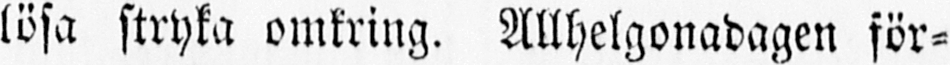lösa stryka omkring. Allhelgonadagen för-
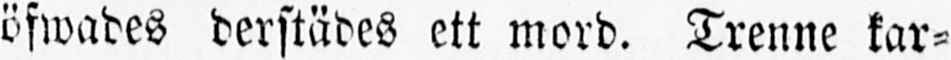öfwades derstädes ett mord. Trenne kar-
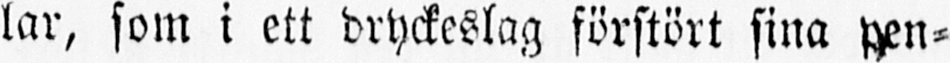lar, som i ett dryckeslag förstört sina pen-
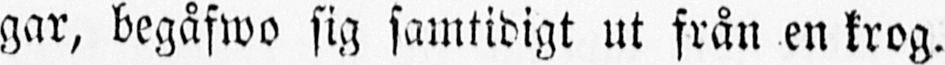gar, begåfwo sig samtidigt ut från en krog.
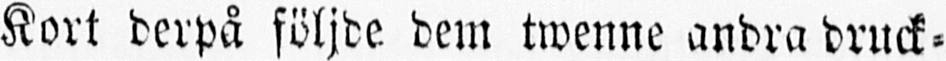Kort derpå följde dem twenne andra druck-
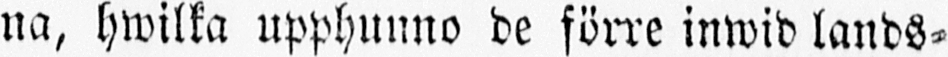na, hwilka upphunno de förre inwid lands-
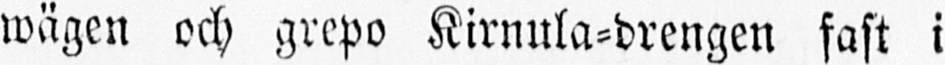wägen och grepo Kirnula-drengen fast i
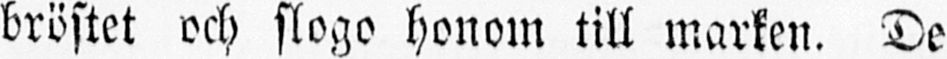bröstet och slogo honom till marken. De
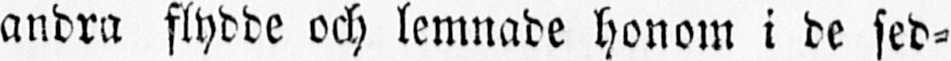andra flydde och lemnade honom i de sed-
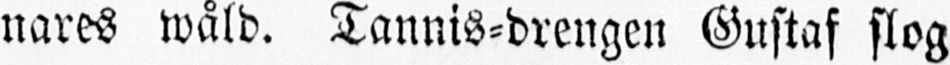nares wåld. Tannis-drengen Gustaf slog
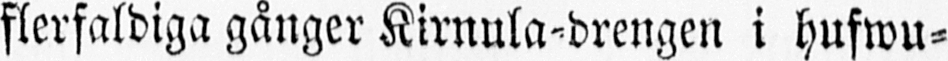flerfaldiga gånger Kirnula-drengen i hufwu-
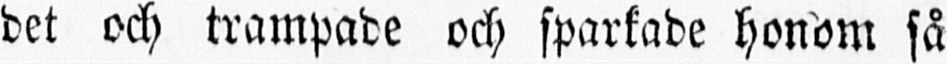det och trampade och sparkade honom så
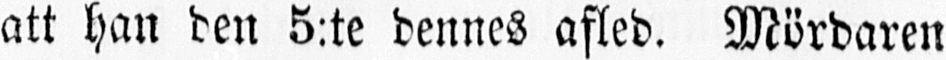att han den 5:te dennes afled. Mördaren
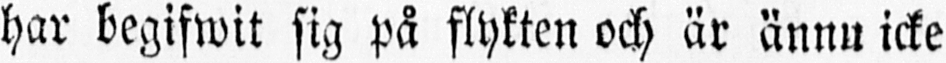har begifwit sig på flykten och är ännu icke
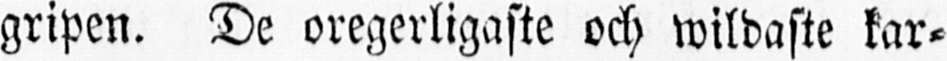gripen. De oregerligaste och wildaste kar-
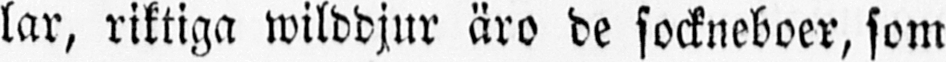lar, riktiga wilddjur äro de sockneboer, som
